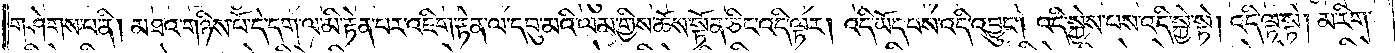གཤེགས་པ་ནི། མཐའ་གཉིས་པོ་དེ་དག་ལ་མི་རྟེན་པར་འཇིག་རྟེན་ལ་དབུ་མའི་ལམ་གྱིས་ཆོས་སྟོན་ཅིང་འདི་ལྟར། འདི་ཡོད་པས་འདི་འབྱུང༌། འདི་སྐྱེས་པས་འདི་སྐྱེ་སྟེ། འདི་ལྟ་སྟེ། མ་རིག་
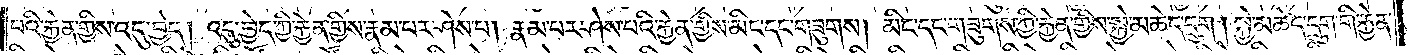པའི་རྐྱེན་གྱིས་འདུ་བྱེད། འདུ་བྱེད་ཀྱི་རྐྱེན་གྱིས་རྣམ་པར་ཤེས་པ། རྣམ་པར་ཤེས་པའི་རྐྱེན་གྱིས་མིང་དང་གཟུགས། མིང་དང་གཟུགས་ཀྱི་རྐྱེན་གྱིས་སྐྱེ་མཆེད་དྲུག །སྐྱེ་མཆེད་དྲུག་གི་རྐྱེན་
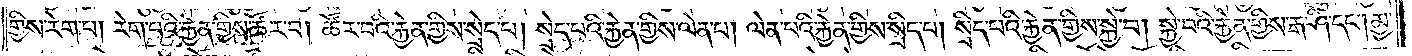གྱིས་རེག་པ། རེག་པའི་རྐྱེན་གྱིས་ཚོར་བ། ཚོར་བའི་རྐྱེན་གྱིས་སྲེད་པ། སྲེད་པའི་རྐྱེན་གྱིས་ལེན་པ། ལེན་པའི་རྐྱེན་གྱིས་སྲིད་པ། སྲིད་པའི་རྐྱེན་གྱིས་སྐྱེ་བ། སྐྱེ་བའི་རྐྱེན་གྱིས་རྒ་ཤི་དང༌། མྱ་
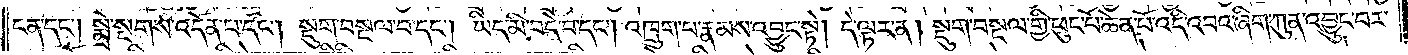ངན་དང༌། སྨྲེ་སྔགས་འདོན་པ་དང༌། སྡུག་བསྔལ་བ་དང༌། ཡིད་མི་བདེ་བ་དང༌། འཁྲུག་པ་རྣམས་འབྱུང་སྟེ། དེ་ལྟར་ན། སྡུག་བསྔལ་གྱི་ཕུང་པོ་ཆེན་པོ་འདི་འབའ་ཞིག་ཀུན་འབྱུང་བར་
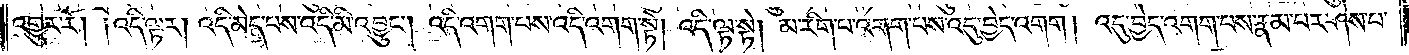འགྱུར་རོ། །འདི་ལྟར། འདི་མེད་པས་འདི་མི་འབྱུང༌། འདི་འགག་པས་འདི་འགག་སྟེ། འདི་ལྟ་སྟེ། མ་རིག་པ་འགག་པས་འདུ་བྱེད་འགག །འདུ་བྱེད་འགག་པས་རྣམ་པར་ཤེས་པ་
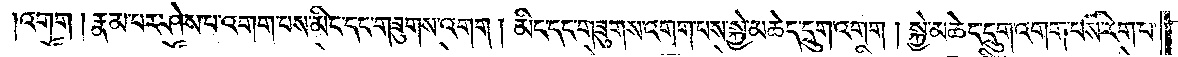འགག །རྣམ་པར་ཤེས་པ་འགག་པས་མིང་དང་གཟུགས་འགག །མིང་དང་གཟུགས་འགག་པས་སྐྱེ་མཆེད་དྲུག་འགག །སྐྱེ་མཆེད་དྲུག་འགག་པས་རེག་པ་
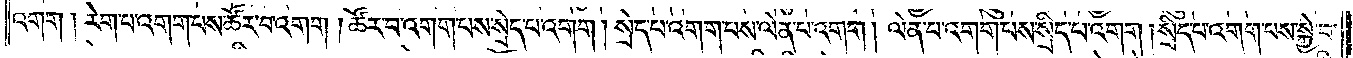འགག །རེག་པ་འགག་པས་ཚོར་བ་འགག །ཚོར་བ་འགག་པས་སྲེད་པ་འགག །སྲེད་པ་འགག་པས་ལེན་པ་འགག །ལེན་པ་འགག་པས་སྲིད་པ་འགག །སྲིད་པ་འགག་པས་སྐྱེ་བ་
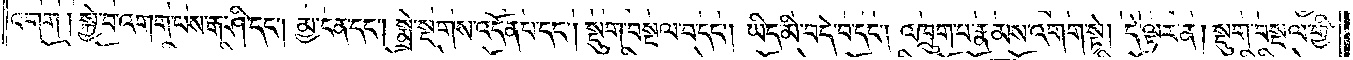འགག །སྐྱེ་བ་འགག་པས་རྒ་ཤི་དང༌། མྱ་ངན་དང༌། སྨྲེ་སྔགས་འདོན་པ་དང༌། སྡུག་བསྔལ་བ་དང༌། ཡིད་མི་བདེ་བ་དང༌། འཁྲུག་པ་རྣམས་འགག་སྟེ། དེ་ལྟར་ན། སྡུག་བསྔལ་གྱི་
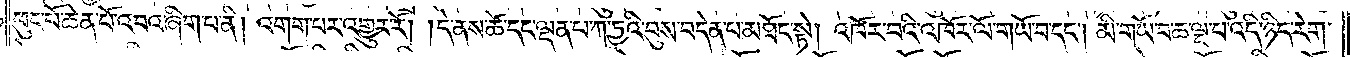ཕུང་པོ་ཆེན་པོ་འབའ་ཞིག་པ་ནི། འགག་པར་འགྱུར་རོ། །དེ་ནས་ཚེ་དང་ལྡན་པ་ཀ་ཏྱའི་བུས་བདེན་པ་མཐོང་སྟེ། འཁོར་བའི་འཁོར་ལོ་གཡོ་བ་དང༌། མི་གཡོ་བ་ཆ་ལྔ་པ་འདི་ཉིད་རེག་
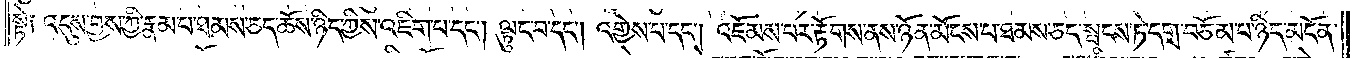སྟེ༑ འདུས་བྱས་ཀྱི་རྣམ་པ་ཐམས་ཅད་ཆོས་ཉིད་ཀྱིས་འཇིག་པ་དང༌། ལྟུང་བ་དང༌། འགྱེས་པ་དང༌། འཇོམས་པར་རྟོགས་ནས་ཉོན་མོངས་པ་ཐམས་ཅད་སྤངས་ཏེ་དགྲ་བཅོམ་པ་ཉིད་མངོན་
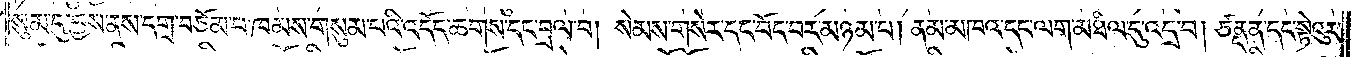སུམ་དུ་བྱས་ནས་དགྲ་བཅོམ་པ་ཁམས་གསུམ་པའི་འདོད་ཆགས་དང་བྲལ་བ། སེམས་གསེར་དང་བོང་བར་མཉམ་པ། ནམ་མཁའ་དང་ལག་མཐིལ་དུ་འདྲ་བ། ཙནྡན་དང་སྟེའུར་
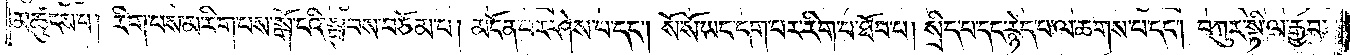མཚུངས་པ། རིག་པས་མ་རིག་པས་སྒོ་ངའི་སྦུབས་བཅོམ་པ། མངོན་པར་ཤེས་པ་དང༌། སོ་སོ་ཡང་དག་པར་རིག་པ་ཐོབ་པ། སྲིད་པ་དང་རྙེད་པ་ལ་ཆགས་པ་དང༌། བཀུར་སྟི་ལ་རྒྱབ་
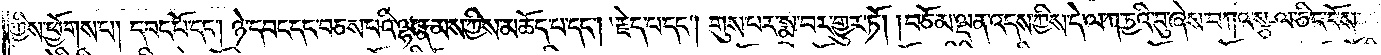ཀྱིས་ཕྱོགས་པ། དབང་པོ་དང༌། ཉེ་དབང་དང་བཅས་པའི་ལྷ་རྣམས་ཀྱིས་མཆོད་པ་དང༌། རྗེད་པ་དང༌། གུས་པར་སྨྲ་བར་གྱུར་ཏོ། །བཅོམ་ལྡན་འདས་ཀྱིས་དེ་ལ་ཀ་ཏྱའི་བུ་ཞེས་བཀའ་སྩལ་ཅིང་བོས་
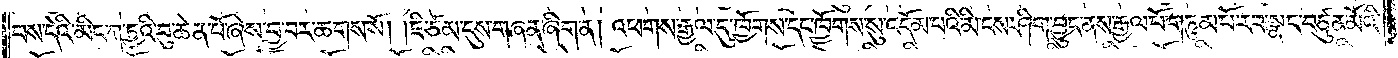བས་དེའི་མིང་ཀ་ཏྱའི་བུ་ཆེན་པོ་ཞེས་བྱ་བར་ཆགས་སོ། །ཇི་ཙམ་དུས་གཞན་ཞིག་ན། འཕགས་རྒྱལ་དུ་ཁྱོགས་དང་ཁྱོགས་སུ་འདོམ་པའི་མི་ངས་ཤིག་བྱུང་ནས་རྒྱལ་པོ་གཏུམ་པོ་རབ་སྣང་བཙུན་མོའི་
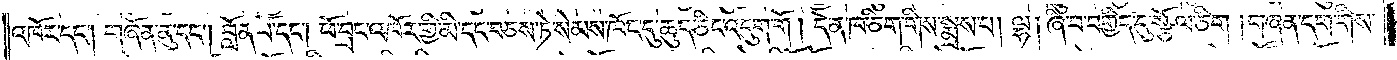འཁོར་དང༌། གཞོན་ནུ་དང༌། བློན་པོ་དང༌། ཕོ་བྲང་འཁོར་གྱི་མི་དང་བཅས་ཏེ་སེམས་ཁོང་དུ་ཆུད་ཅིང་འདུག་གོ །དེ་ན་ཁ་ཅིག་གིས་སྨྲས་པ། ལྷ། ཞི་བ་བགྱིད་དུ་སྩོལ་ཅིག །གཞན་དག་གིས་
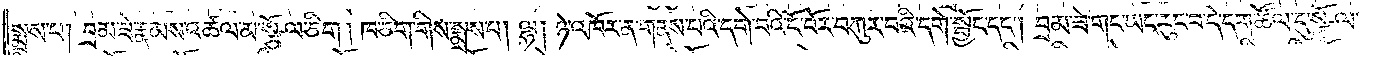སྨྲས་པ། བྲམ་ཟེ་རྣམས་འཚལ་མ་སྩོལ་ཅིག །ཁ་ཅིག་གིས་སྨྲས་པ། ལྷ། ཉེ་འཁོར་ན་གནས་པའི་དགེ་བའི་ངོ་བོར་བཀུར་བའི་དགེ་སྦྱོང་དང༌། བྲམ་ཟེ་གང་ཡང་རུང་བ་དེ་དག་ཚོལ་དུ་སྩོལ་
